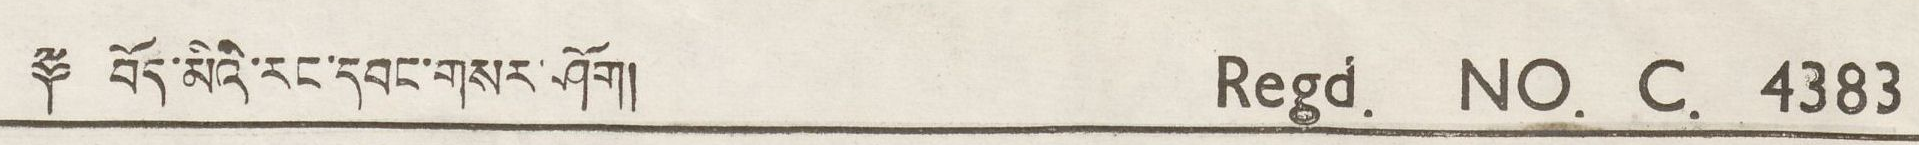༈ བོད་མིའི་རང་དབང་གསར་ཤོག། Regd. NO. C. 4383
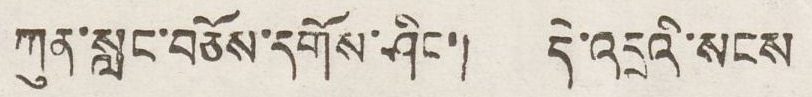ཀུན་སླང་བཅོས་དགོས་ཤིང་། དེ་འདྲའི་སངས
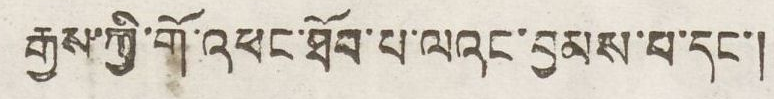རྒྱས་ཀྱི་གྲོ་འཕང་ཐོབ་པ་ལའང་བྱམས་པ་དང་།
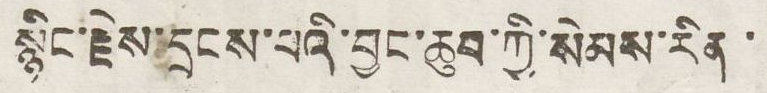སྙིང་རྗེས་དྲངས་པའི་བྱང་ཆུབ་ཀྱི་སེམས་རིན་
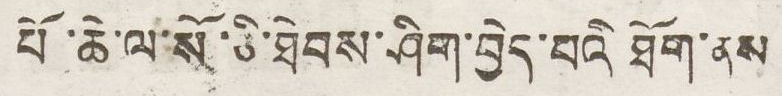པོ་ཆེ་ལ་སོ་ཅི་ཐེབས་ཤིག་བྱེད་པའི ཐོག་ནས
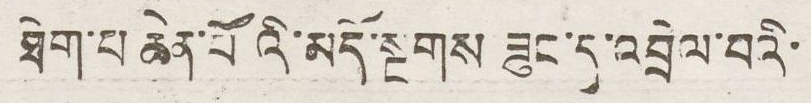ཐེག་པ ཆེན་པོའི་མདོ་སྔགས ཟུང་དུ་འབྲེལ་བའི་
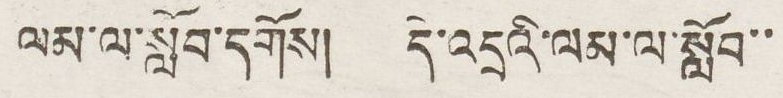ལམ་ལ་སློབ་དགོས། དེ་འདྲའི་ལམ་ལ་སློབ་་
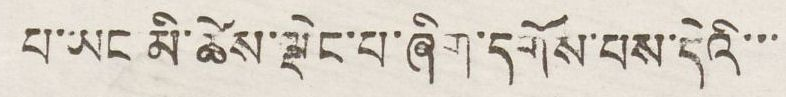པ་ཡང མི་ཆཚེས་སྡེང་པ་ཞིག་དགོས་པས་དེའི་་་
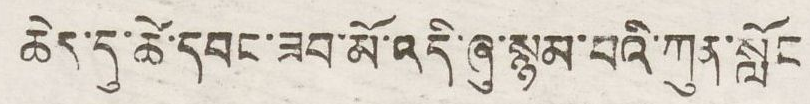ཆེད་དུ་ཚེ་དབང་ཟབ་མོ་འདི་ཞུ་སྙམ་པའི་ཀུན་སློང
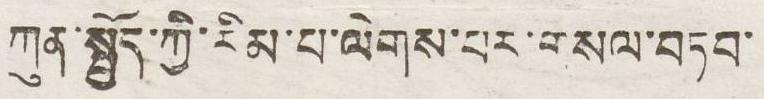ཀུན་སྤྱོད་ཀྱི་རིམ་པ་ལེགས་པར་གསལ་བཏབ་
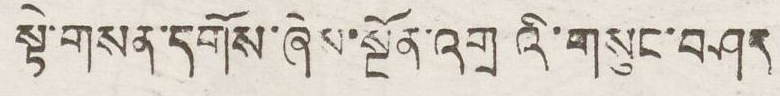སྟེ་གསན་དགོས་ཞེས་སྔོན་འགྲུའི་གསུང་བཤད
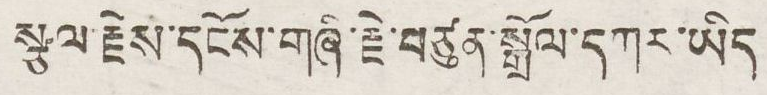སྩལ་རྗེས་དངོས་གཞི་རྗེ་བཙུན་སྒྲོལ་དཀར་ཡིད
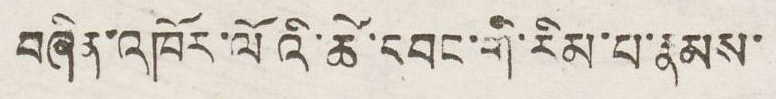བཞིན་འཁོར་ལོའི་ཚེ་དབང་གི་རིམ་པ་རྣམས་
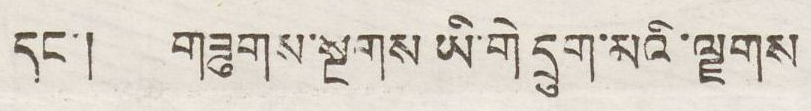དང་།  གཟུགས་སྔགས་ཡི་གེ་དྲུག་མའི་ལྗགས
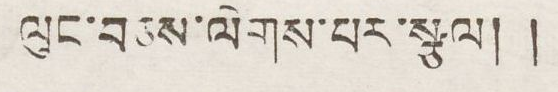ལུང་བཅས་ལེགས་པར་སྩལ། །
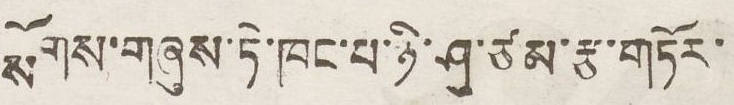སོགས་གཞུས་ཏེ་ཁང་པ་ཉི་ཤུ་ཙམ་རྩ་གཏོར་
